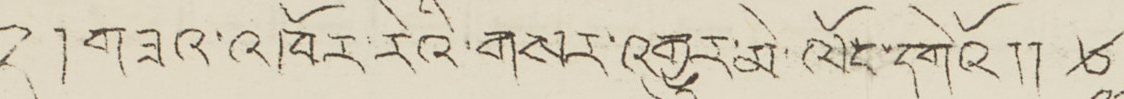༢ ། གཟའ་འཁོར་རེའི་གསར་འགྱུར་མེ་ལོང་དགེའོ།།
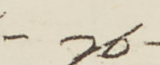༦-༡༠-༢༨ །
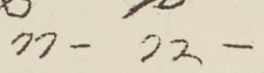༡༡- ༡༢-
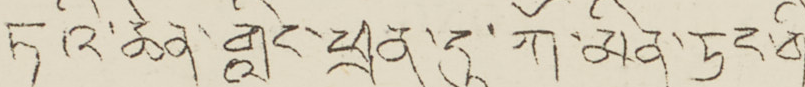ཏའི་ཆེན་གླིང་ཕྲན་དུ་ཀོ་མིན་ཏང་གི་
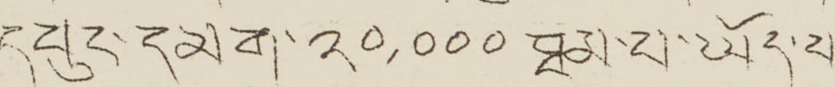དཔུང་དམག་༢༠,༠༠༠ ཐམ་པ་ཡོད་པ་
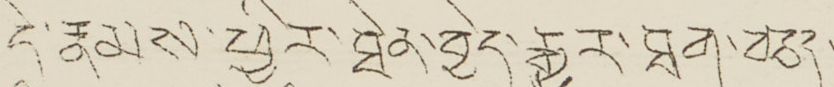དེ་རྣམས་ཕྱིར་ཐེན་བྱེད་རྒྱུར་ཐག་བཅད་
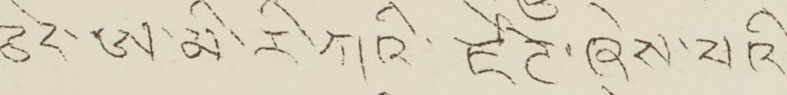ཅིང་ཨ་མི་རི་ཀའི་རྫེཊེ་ཞེས་པའི་
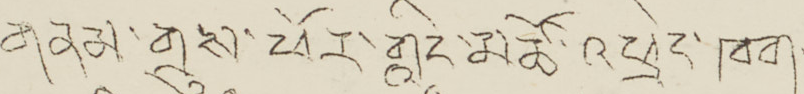གནས་གྲུས་ཕོར་གླིང་མཚོ་འཕྲེང་ཁག་
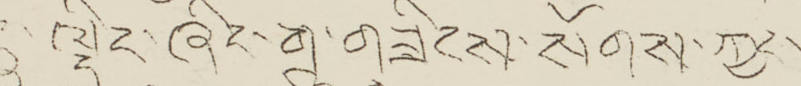ཏུ་ལྡིང་ཞིང་གྲུ་གཟིངས་སོགས་ཀྱས་
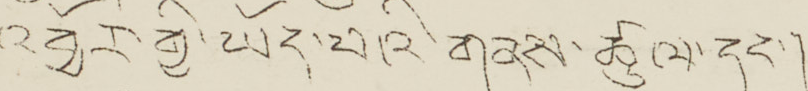འབྱོར་ཀྱི་ཡོད་པའི་གནས་ཚུལ་དང་།
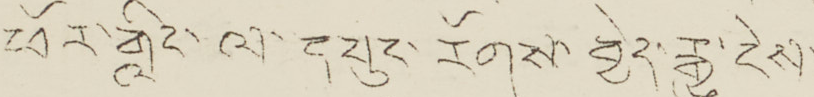ཕོར་གླིང་ལ་དཔུང་རོགས་བྱེད་རྒྱུ་ངེས་
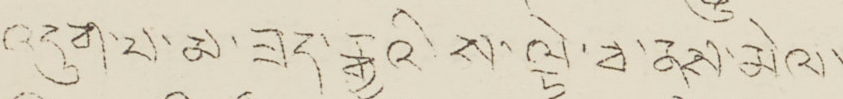འདུག་མ་ཟད་རྒྱའི་ས་ལྟེ་བ་ནས་མེལ་
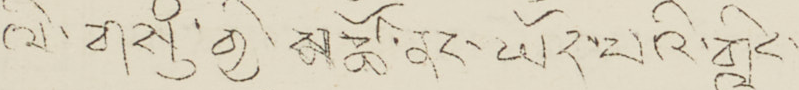ལི་གསུཾ་གྱི་མཚོ་ནས་ཡོད་པའི་གླིང་
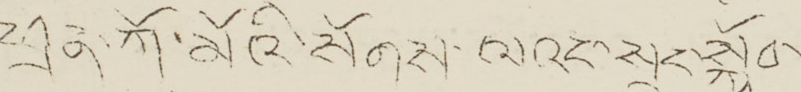ཕྲན་ཀོ་མོའོ་སོགས་ལའང་སྲུང་སྐྱོབ་
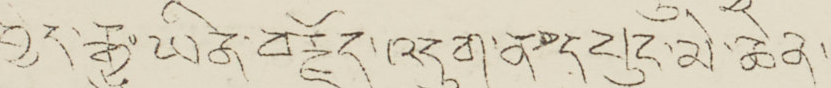བྱད་རྒྱུ་ཡིན་བརྗོད་འདུག་ན་དཔུང་མི་ཆེན་
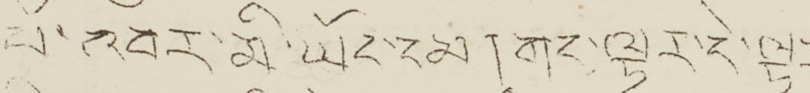པོ་འབར་མི་ཡོང་ངམ། གང་ལྟར་དེ་ལྟར་
